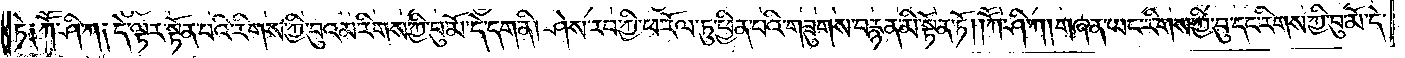ཏེ༑ ཀཽ་ཤི་ཀ༑ དེ་ལྟར་སྟོན་པའི་རིགས་ཀྱི་བུའམ་རིགས་ཀྱི་བུ་མོ་དེ་དག་ནི། ཤེས་རབ་ཀྱི་ཕ་རོལ་ཏུ་ཕྱིན་པའི་གཟུགས་བརྙན་མི་སྟོན་ཏོ། །ཀཽ་ཤི་ཀ། གཞན་ཡང་རིགས་ཀྱི་བུ་དང་རིགས་ཀྱི་བུ་མོ་དེ་
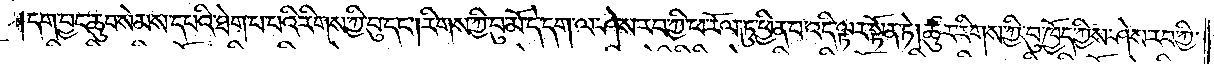དག་བྱང་ཆུབ་སེམས་དཔའི་ཐེག་པ་པའི་རིགས་ཀྱི་བུ་དང༌། རིགས་ཀྱི་བུ་མོ་དེ་དག་ལ་ཤེས་རབ་ཀྱི་ཕ་རོལ་ཏུ་ཕྱིན་པ་འདི་ལྟར་སྟོན་ཏེ། ཚུར་རིགས་ཀྱི་བུ་ཁྱོད་ཀྱིས་ཤེས་རབ་ཀྱི་
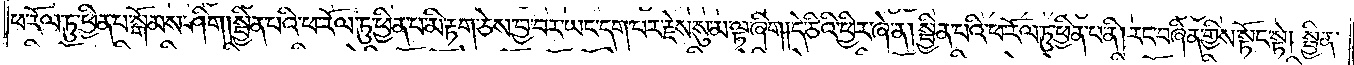ཕ་རོལ་ཏུ་ཕྱིན་པ་སྒོམས་ཤིག །སྦྱིན་པའི་ཕ་རོལ་ཏུ་ཕྱིན་པ་མི་རྟག་ཅེས་བྱ་བར་ཡང་དག་པར་རྗེས་སུ་མ་ལྟ་ཞིག །དེ་ཅིའི་ཕྱིར་ཞེ་ན། སྦྱིན་པའི་ཕ་རོལ་ཏུ་ཕྱིན་པ་ནི། རང་བཞིན་གྱིས་སྟོང་སྟེ། སྦྱིན་
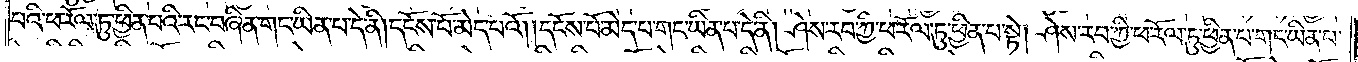པའི་ཕ་རོལ་ཏུ་ཕྱིན་པའི་རང་བཞིན་གང་ཡིན་པ་དེ་ནི། དངོས་པོ་མེད་པའོ། །དངོས་པོ་མེད་པ་གང་ཡིན་པ་དེ་ནི། ཤེས་རབ་ཀྱི་ཕ་རོལ་ཏུ་ཕྱིན་པ་སྟེ། ཤེས་རབ་ཀྱི་ཕ་རོལ་ཏུ་ཕྱིན་པ་གང་ཡིན་པ་
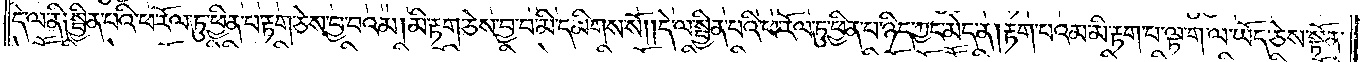དེ་ལ་ནི༑ སྦྱིན་པའི་ཕ་རོལ་ཏུ་ཕྱིན་པ་རྟག་ཅེས་བྱ་བའམ། མི་རྟག་ཅེས་བྱ་བ་མི་དམིགས་སོ། །དེ་ལ་སྦྱིན་པའི་ཕ་རོལ་ཏུ་ཕྱིན་པ་ཉིད་ཀྱང་མེད་ན། རྟག་པའམ་མི་རྟག་པ་ལྟ་ག་ལ་ཡོད་ཅེས་སྟོན་
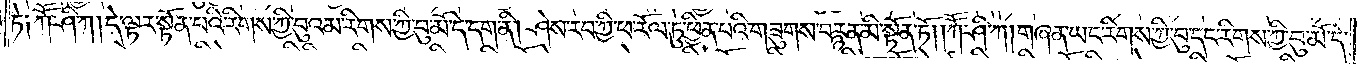ཏེ༑ ཀཽ་ཤི་ཀ། དེ་ལྟར་སྟོན་པའི་རིགས་ཀྱི་བུའམ་རིགས་ཀྱི་བུ་མོ་དེ་དག་ནི། ཤེས་རབ་ཀྱི་ཕ་རོལ་ཏུ་ཕྱིན་པའི་གཟུགས་བརྙན་མི་སྟོན་ཏོ། །ཀཽ་ཤི་ཀ། གཞན་ཡང་རིགས་ཀྱི་བུ་དང་རིགས་ཀྱི་བུ་མོ་དེ་
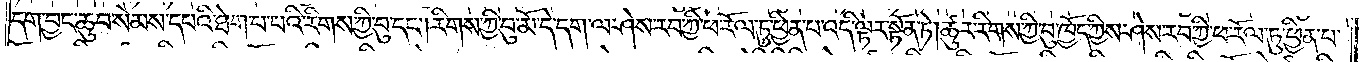དག་བྱང་ཆུབ་སེམས་དཔའི་ཐེག་པ་པའི་རིགས་ཀྱི་བུ་དང༌། རིགས་ཀྱི་བུ་མོ་དེ་དག་ལ་ཤེས་རབ་ཀྱི་ཕ་རོལ་ཏུ་ཕྱིན་པ་འདི་ལྟར་སྟོན་ཏེ། ཚུར་རིགས་ཀྱི་བུ་ཁྱོད་ཀྱིས་ཤེས་རབ་ཀྱི་ཕ་རོལ་ཏུ་ཕྱིན་པ་
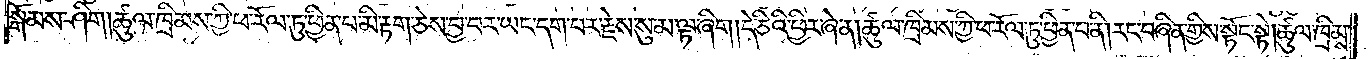སྒོམས་ཤིག །ཚུལ་ཁྲིམས་ཀྱི་ཕ་རོལ་ཏུ་ཕྱིན་པ་མི་རྟག་ཅེས་བྱ་བར་ཡང་དག་པར་རྗེས་སུ་མ་ལྟ་ཞིག །དེ་ཅིའི་ཕྱིར་ཞེ་ན། ཚུལ་ཁྲིམས་ཀྱི་ཕ་རོལ་ཏུ་ཕྱིན་པ་ནི། རང་བཞིན་གྱིས་སྟོང་སྟེ། ཚུལ་ཁྲིམས་
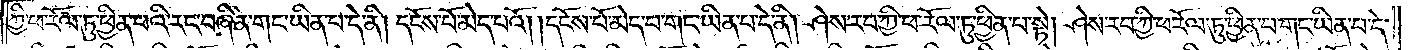ཀྱི་ཕ་རོལ་ཏུ་ཕྱིན་པའི་རང་བཞིན་གང་ཡིན་པ་དེ་ནི། དངོས་པོ་མེད་པའོ། །དངོས་པོ་མེད་པ་གང་ཡིན་པ་དེ་ནི། ཤེས་རབ་ཀྱི་ཕ་རོལ་ཏུ་ཕྱིན་པ་སྟེ། ཤེས་རབ་ཀྱི་ཕ་རོལ་ཏུ་ཕྱིན་པ་གང་ཡིན་པ་དེ་
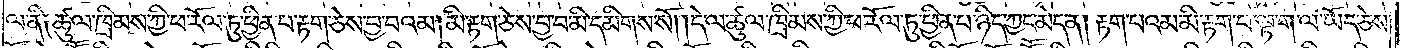ལ་ནི༑ ཚུལ་ཁྲིམས་ཀྱི་ཕ་རོལ་ཏུ་ཕྱིན་པ་རྟག་ཅེས་བྱ་བའམ། མི་རྟག་ཅེས་བྱ་བ་མི་དམིགས་སོ། །དེ་ལ་ཚུལ་ཁྲིམས་ཀྱི་ཕ་རོལ་ཏུ་ཕྱིན་པ་ཉིད་ཀྱང་མེད་ན། རྟག་པའམ་མི་རྟག་པ་ལྟ་ག་ལ་ཡོད་ཅེས་
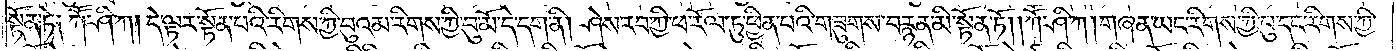སྟོན་ཏེ༑ ཀཽ་ཤི་ཀ། དེ་ལྟར་སྟོན་པའི་རིགས་ཀྱི་བུའམ་རིགས་ཀྱི་བུ་མོ་དེ་དག་ནི། ཤེས་རབ་ཀྱི་ཕ་རོལ་ཏུ་ཕྱིན་པའི་གཟུགས་བརྙན་མི་སྟོན་ཏོ། །ཀཽ་ཤི་ཀ། གཞན་ཡང་རིགས་ཀྱི་བུ་དང་རིགས་ཀྱི་
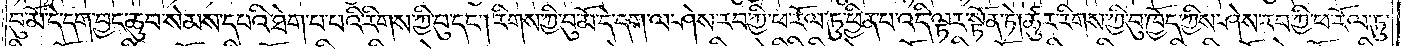བུ་མོ་དེ་དག་བྱང་ཆུབ་སེམས་དཔའི་ཐེག་པ་པའི་རིགས་ཀྱི་བུ་དང༌། རིགས་ཀྱི་བུ་མོ་དེ་དག་ལ་ཤེས་རབ་ཀྱི་ཕ་རོལ་ཏུ་ཕྱིན་པ་འདི་ལྟར་སྟོན་ཏེ། ཚུར་རིགས་ཀྱི་བུ་ཁྱོད་ཀྱིས་ཤེས་རབ་ཀྱི་ཕ་རོལ་ཏུ་
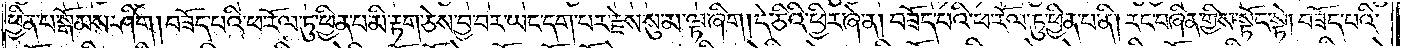ཕྱིན་པ་སྒོམས་ཤིག །བཟོད་པའི་ཕ་རོལ་ཏུ་ཕྱིན་པ་མི་རྟག་ཅེས་བྱ་བར་ཡང་དག་པར་རྗེས་སུ་མ་ལྟ་ཞིག །དེ་ཅིའི་ཕྱིར་ཞེ་ན། བཟོད་པའི་ཕ་རོལ་ཏུ་ཕྱིན་པ་ནི། རང་བཞིན་གྱིས་སྟོང་སྟེ། བཟོད་པའི་
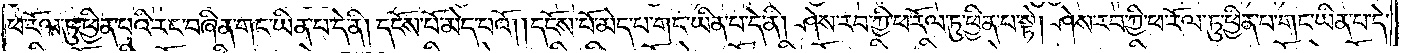ཕ་རོལ་ཏུ་ཕྱིན་པའི་རང་བཞིན་གང་ཡིན་པ་དེ་ནི། དངོས་པོ་མེད་པའོ། །དངོས་པོ་མེད་པ་གང་ཡིན་པ་དེ་ནི། ཤེས་རབ་ཀྱི་ཕ་རོལ་ཏུ་ཕྱིན་པ་སྟེ། ཤེས་རབ་ཀྱི་ཕ་རོལ་ཏུ་ཕྱིན་པ་གང་ཡིན་པ་དེ་
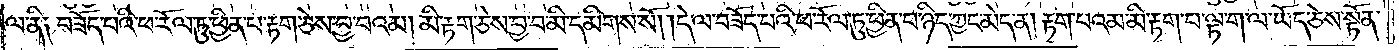ལ་ནི། བཟོད་པའི་ཕ་རོལ་ཏུ་ཕྱིན་པ་རྟག་ཅེས་བྱ་བའམ། མི་རྟག་ཅེས་བྱ་བ་མི་དམིགས་སོ། །དེ་ལ་བཟོད་པའི་ཕ་རོལ་ཏུ་ཕྱིན་པ་ཉིད་ཀྱང་མེད་ན། རྟག་པའམ་མི་རྟག་པ་ལྟ་ག་ལ་ཡོད་ཅེས་སྟོན་
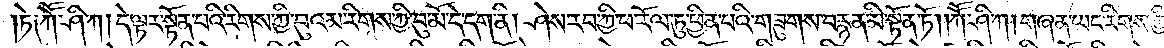ཏེ༑ ཀཽ་ཤི་ཀ། དེ་ལྟར་སྟོན་པའི་རིགས་ཀྱི་བུའམ་རིགས་ཀྱི་བུ་མོ་དེ་དག་ནི། ཤེས་རབ་ཀྱི་ཕ་རོལ་ཏུ་ཕྱིན་པའི་གཟུགས་བརྙན་མི་སྟོན་ཏོ། །ཀཽ་ཤི་ཀ། གཞན་ཡང་རིགས་ཀྱི་
